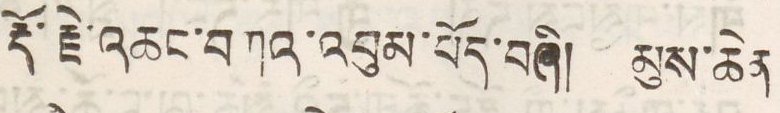རྡོ་རྗེ་འཆང་བཀའ་འབུམ་པོད་བཞི། མུས་ཆེན
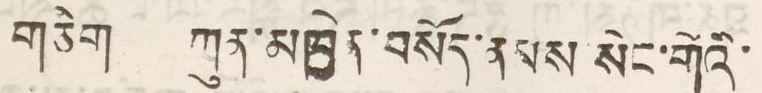གཅིག ཀུན་མཁྱེན་བསོད་ནམས སེང་གེའི་
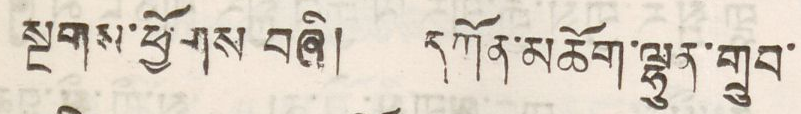སྔགས་ཕྱོགས བཞི། དཀོན་མཆོག་ལྷུན་གྲུབ་
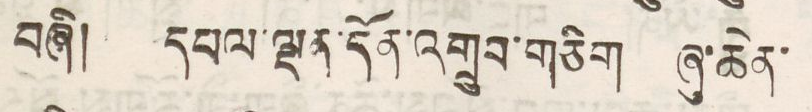བཞི། དཔལ་ལྡན་དོན་གྲུབ་གཅིག ཞུ་ཆེན་
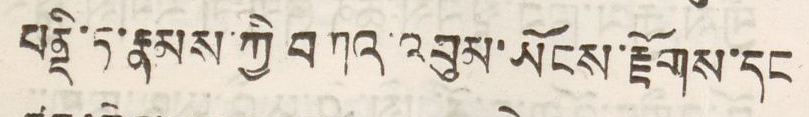པནྡི་ཏ་རྣམས་ཀྱི བཀའ་འབུམ་ཡོངས་རྫོགས་དང
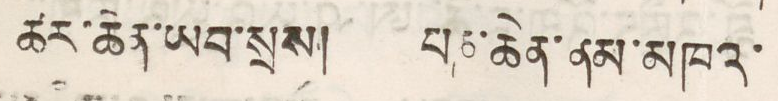ཚར་ཆེན་ཡབ་སྲས། པཎ་ཆེན་ནམ་མཁའ་
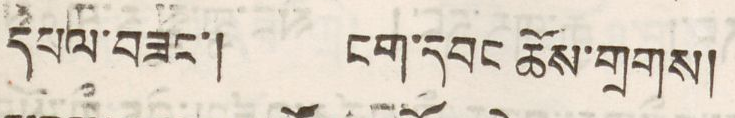དཔལ་བཟང་། ངག་དབང ཆོས་གྲགས།
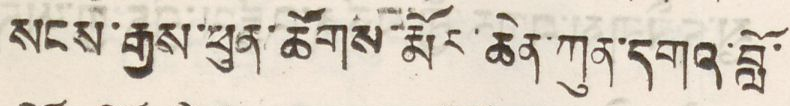སངས་རྒྱས་ཕུན་ཚོགས་རྨོར་ཆེན་ཀུན་དགའ་བློ་
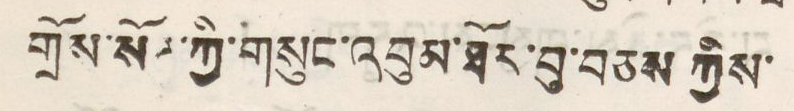གྲོས་སོཌ་ཀྱི་གསུང་འབུམ་ཐོར་བུ་བཅས ཀྱིས་
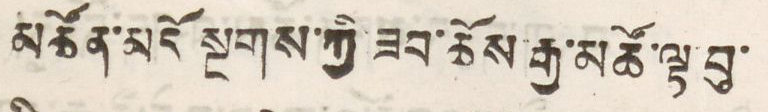མཚོན་མདོ་སྔགས་ཀྱི་ཟབ་ཆོས་རྒྱ་མཚོ་ལྟ་བུ་
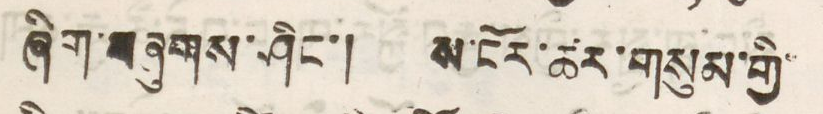ཞིག་བཞུགས་ཤིང་། ས་ངོར་ཚར་གསུམ་གྱི་
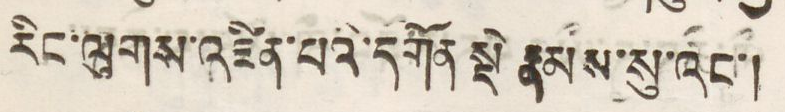རིང་ལུགས་འཛིན་པའི་དགོན སྡེ རྣམས་སུ་འང་།
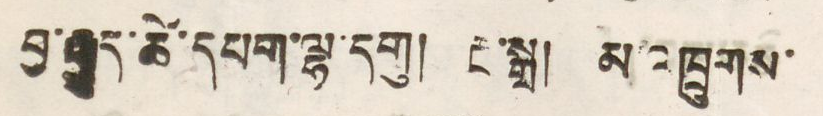བྱ་རྒྱུད་ཚེ་དཔག་ལྷ་དགུ། རྔ་སྒྲ། མ་འཁྲུགས་
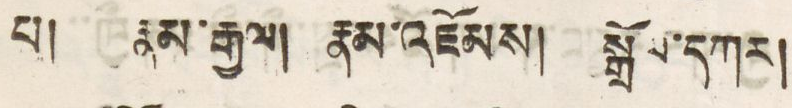པ། རྣམ་རྒྱལ། རྣམ་འཇོམས། སྒྲོལ་དཀར།
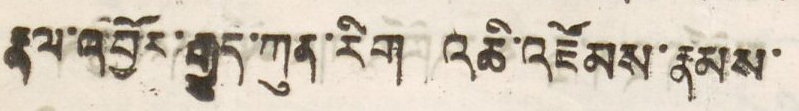རྣལ་འབྱོལ་རྒྱུད་ཀུན་རིག འཆི་འཛོམས་རྣམས་
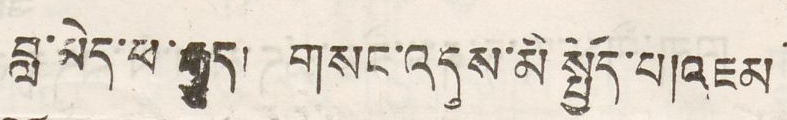བླ་མེད་ཕ་རྒྱུད། གསང་འདུས་མི སྤྱོད་པ།འཇམ་
